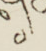ཾ
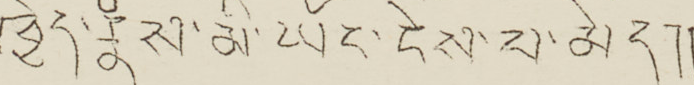ཁྱེད་རྣཾས་མི་ཡོང་ངེས་པ་མེད།།
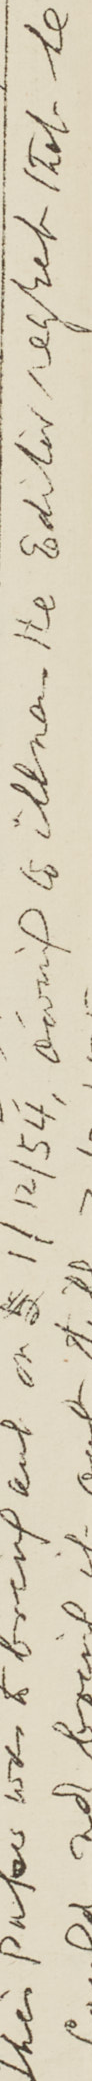This paper was to bring and on 5 1/12/54, owning to illna the editor reghet that be
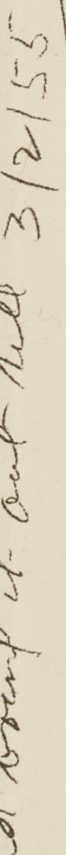could not bring it out still 3/2/55
